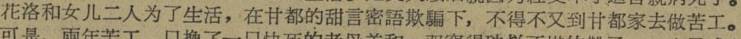花洛和女儿二人为了生活，在甘都的甜言密語欺騙下，不得不又到甘都家去做苦工。
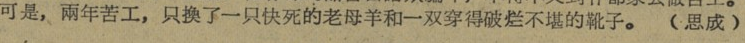可是，兩年苦工，只換了一只快死的老母羊和一双穿得破烂不堪的靴子。 （思成）
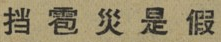挡 雹 災 是 假
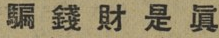騙 錢 財 是 眞
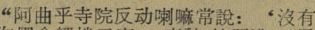“阿曲乎寺院反动喇嘛常說：‘沒有
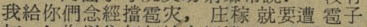我給你們念經擋雹灾，庄稼 就要遭 雹子
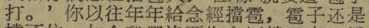打。’你以往年年給念經擋雹，雹子还是
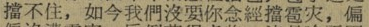擋不住，如今我們沒要你念經擋雹灾，偏
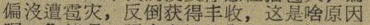偏沒遭雹灾，反倒获得丰收，这是啥原因
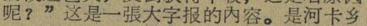呢？”这是一張大字报的内容。是河卡乡
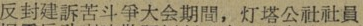反封建訴苦斗爭大会期間，灯塔公社社員
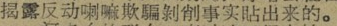揭露反动喇嘛欺騙剝削事实貼出来的。
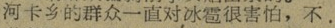河卡乡的群众一直对冰雹很害怕，不
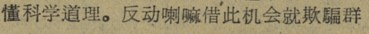懂科学道理。反动喇嘛借此机会就欺騙群
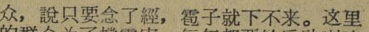众，說只要念了經，雹子就下不来。这里
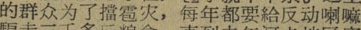的群众为了擋雹灾，每年都要給反动喇嘛
